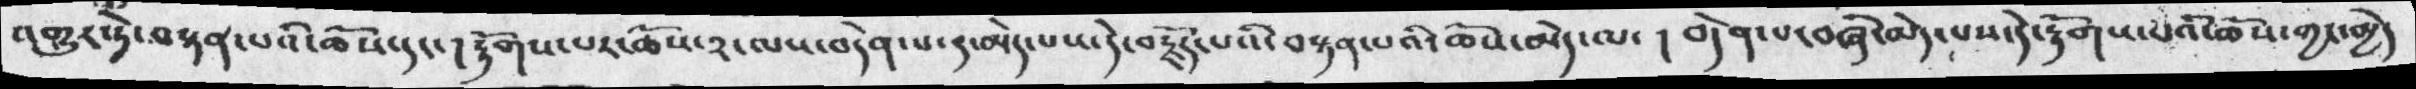འགྱུར་སྟེ་བསྟན་པའི་ཆོས་དང་།  རྟོགས་པར་ཆོས་༢་ལས་བདེན་པ་༢་མེད་པས་དེ་བརྗོད་པའི་བསྟན་པའི་ཆོས་མེད་ལ་  བདེན་པ་བཞི་མེད་པས་དེ་རྟོགས་པའི་ཆོས་མྱེད་
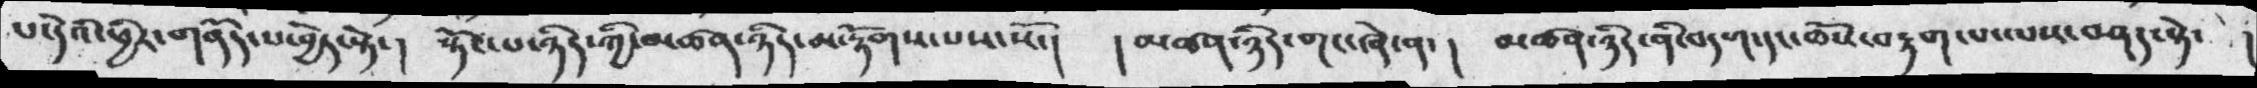པ་དེའི་ཕྱིར་གནོད་པ་ཕྱེད་སྟེ་།   སྟོང་པ་ཉིད་ཀྱི་མཚན་ཉིད་མ་རྟོགས་པས་སོ་།     ། མཚན་ཉིད་གང་ཞེ་ན་།  མཚན་ཉིད་ནི་བདག་དང་ཆོས་བརྟག་པ་ལས་བཤད་སྟེ་  །
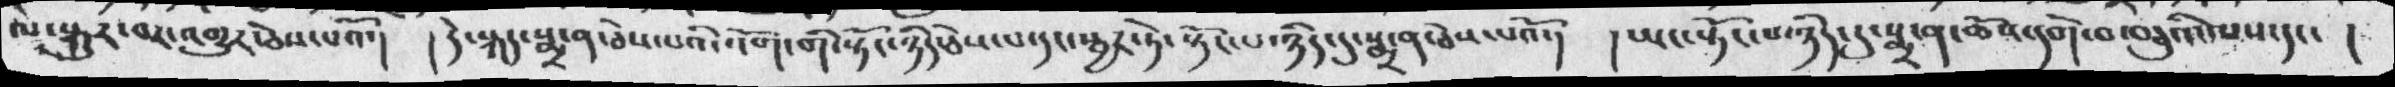ལ་སྐུར་པར་འགྱུར་ཅེས་པའོ་།  ། དེ་སྐད་སྨྲ་ན་ཅེད་པའི་འོག་གི་སྟོང་ཉིད་ཅེས་པ་དང་སྦྱར་ཏེ་སྟོང་པ་ཉིད་དུ་སྨྲ་ན་ཅེས་པའོ་།  ། ཡང་སྟོང་པ་ཉིད་དུ་སྨྲ་ན་ཆོས་དགེ་བ་བཅུའི་ལས་དང་ །
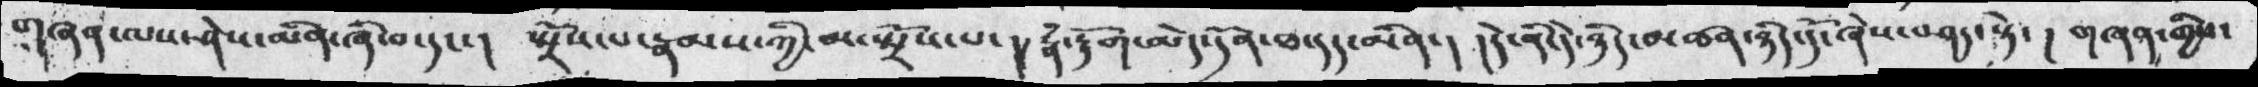གཞན་ལས་ཤེས་མིན་ཞི་བ་དང་།   སྤྲོས་པ་རྣམས་ཀྱི་མ་སྤྲོས་པ་ །། རྣཾ་རྟོག་མེད་དོན་ཐ་དད་མིན་།  །དེ་ནི་དེ་ཉིད་མཚན་ཉིད་དོ་ཞེས་བཤད་སྟེ་ ། གཞན་གྱི་
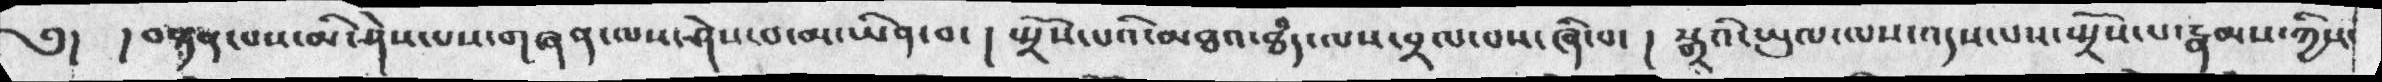༅།    །བསྟན་པས་མི་ཤེས་པས་གཞན་ལས་ཤེས་པས་གཞན་ལས་ཤེསབ་མ་ཡིན་བ་།  སྤྲོས་པའི་མཐའ་ཐདཾ་ལས་བྲལ་པས་ཞི་བ་  ། སྒྲའི་ཡུལ་ལས་འདས་པས་སྤྲོས་པ་རྣམས་ཀྱིས་
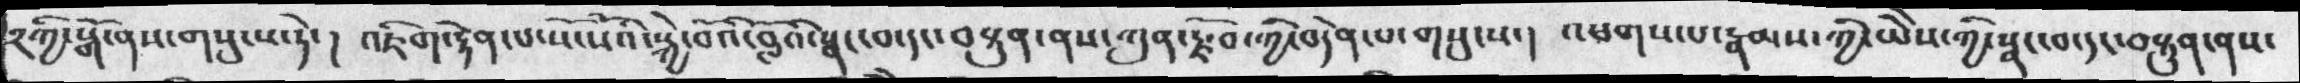༢ཀྱི་སྒོ་ནས་གསུངས་ཏེ་། འཇིག་རྟེན་པ་སོ་སོའི་སྐྱེ་བོའི་བློའི་སྣང་བ་དང་བསྟུན་ནས་ཀུན་རྫོབ་ཀྱི་བདེན་པ་གསུངས་། འཕགས་པ་རྣམས་ཀྱི་ཡཻས་ཀྱི་སྣང་བ་དང་བསྟུན་ནས་
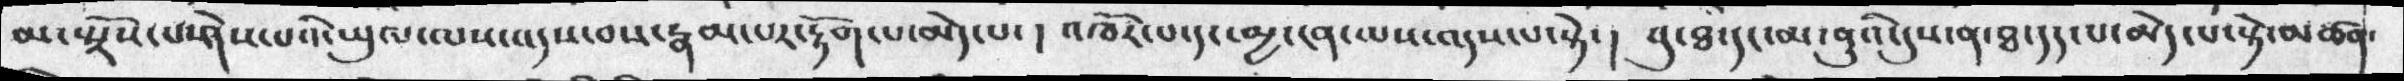མ་སྤྲོས་པ་ཤེས་པའི་ཡུལ་ལས་འདས་བས་རྣམ་པར་རྟོག་པ་མེད་པ་།  འཁོར་པ་དང་མྱ་ངན་ཌྷས་འདས་པ་སྟེ་། བུ་ཐ་དང་མ་ནུའི་དུས་ན་ཐ་དད་པ་མེད་པ་སྟེ་མཚན་
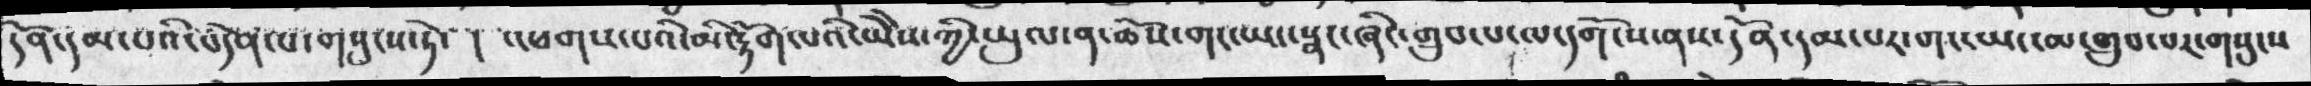དོན་དམ་པའི་བདེན་པ་གསུངས་ཏེ་།  འཕགས་པའི་མི་རྟོག་པའི་ཡཻས་ཀྱི་ཡུལ་ན་ཆོས་གང་ཡང་སྣང་ཞིང་གྲུབ་པ་ལ་དགོངས་ནས་དོན་དམ་པར་གང་ཡད་མ་གྲུབ་པར་གསུངས
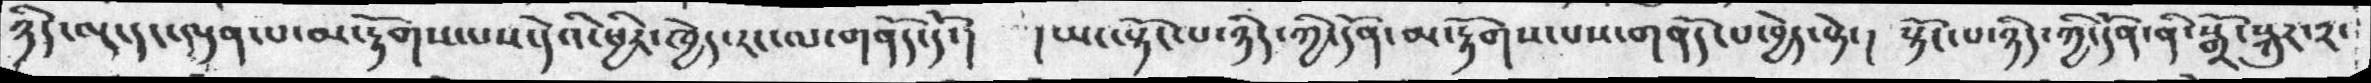ཉིད་ལྔ་དང་ལྡན་པ་མ་རྟོགས་པས་དེའི་ཕྱིར་ཁྱེད་རང་ལ་གནོད་དོ་།   ། ཡང་སྟོང་པ་ཉིད་ཀྱི་དོན་མ་རྟོགས་པས་གནོད་པ་བྱེད་སྟེ་ ། སྟོང་པ་ཉིད་ཀྱི་དོན་ནི་སྒྲོ་སྐུར་༢་
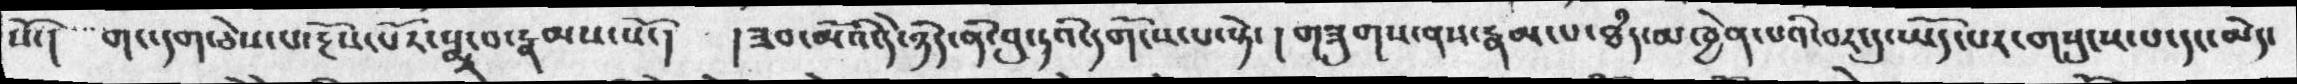སོ་།  གང་དག་ཅེས་པ་རྔོས་པོར་སྨྲ་བ་རྣམས་སོ་།     །ཟབ་མོའི་དེ་ཉིད་ནི་བུ་ཏའི་དགོངས་པ་སྟེ་  ། གཟུགས་ནས་རྣམ་པ་ཐདཾ་མཁྱེན་པའི་བར་དུ་ཡོད་པར་གསུངས་པ་དང་མེད་
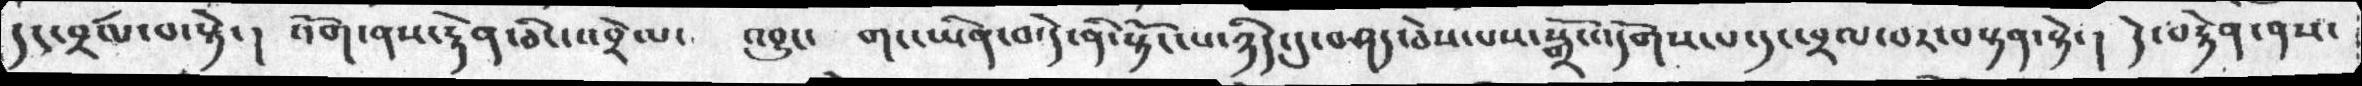དང་བྲལ་བ་སྟེ་།  འོག་ནས་རྟེན་ཅིང་འབྲེལ་  འབྱུང་  གང་ཡིན་བ་དེ་ནི་སྟོང་པ་ཉིད་དུ་བཤད་ཅེས་པས་སྒྲོ་འདོགས་པ་དང་བྲལ་བར་བསྟན་སྟེ་།   དེ་བརྟེན་ནས་
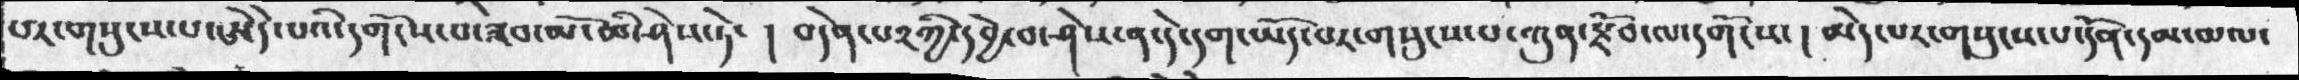པར་གསུངས་པ་ཨེདེ་པའི་དགོངས་པ་ཟབ་མོ་མི་ཤེས་ཏེ་  ། བདེན་པ༢ཀྱི་དབྱེ་བ་ཤེས་ན་དེ་དག་ཡོད་པར་གསུངས་པ་ཀུན་སྫོབ་ལ་དགོངས་ ། མེད་པར་གསུངས་པ་དོན་དམ་མལ་
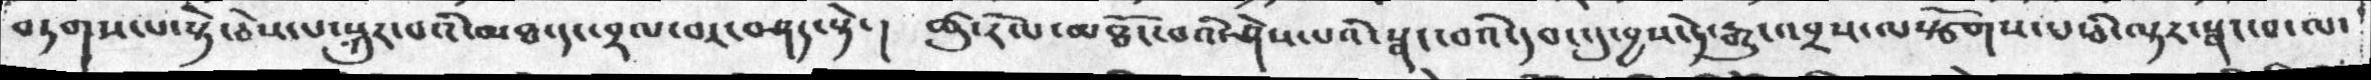བཏགས་པ་སྟེ་ཅེས་པ་སྐུར་བའི་མཐའ་དང་བྲལ་བར་བཤད་སྟེ་།  ཚུ་རོལ་མཐོང་བའི་ཤེས་པའི་སྣང་བའི་དབང་དུ་བྱས་ཏེ་རྒྱུ་འབྲས་ལསྩོགས་པ་ཅི་ལྟར་སྣང་བ་ལ་
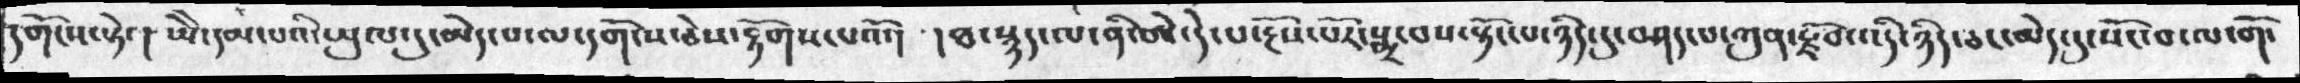དགོངས་སྟེ་། ཡཻ་དམ་པའི་ཡུལ་དུ་མེད་པ་ལ་དགོངས་ཅེས་རྟོགས་པའོ་།  །ཐ་སྙད་ལ་ནི་ཨེ་དེ་པ་རྔོས་པོར་སྨྲ་བས་སྟོང་པ་ཉིད་དུ་བཤད་པ་ཀུན་རྫོབ་འདི་ཉིད་ཅང་མེད་དུ་སོང་བ་ལ་གོ་
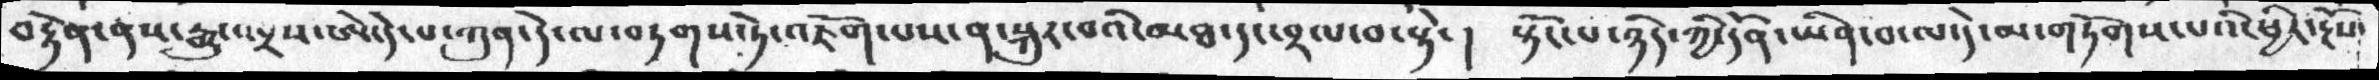བརྟེན་ནས་རྒྱུ་འབྲས་ཨེ་དེ་པ་ཀུན་དེ་ལ་བཏགས་ཏེ་འཇོག་པས་ན་སྐུར་བའི་མཐ་དང་བྲལ་བ་སྟེ་། སྟོང་པ་ཉིད་ཀྱི་དོན་ཡིན་བ་ལ་དེ་མ་གཏོགས་པའི་ཕྱིར་རྔོས་
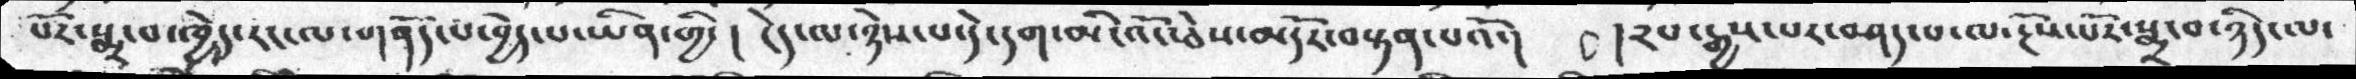པོར་སྨྲ་བ་ཁྱེད་རང་ལ་གནོད་པ་བྱེད་པ་ཡིན་གྱི་། ངེད་ལ་ཉེས་པ་དེ་དག་མི་འོང་ཅེས་མདོར་བསྟན་པའོ་།  །༢པ་རྒྱས་པར་བཤད་པ་ལ་རྔོས་པོར་སྨྲ་བ་ཉིད་ལ་
